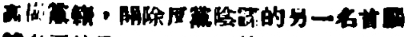高崗黨籍，開除反黨陰謀的另一名首腦
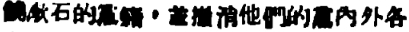饒漱石的黨籍，並撤消他們的黨內外各
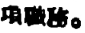項職務。
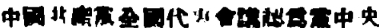中國共產黨全國代表會議認爲黨中央
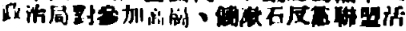政治局對參加高崗、饒漱石反黨聯盟活
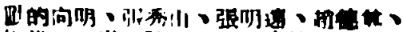動的向明、張秀山、張明遠、趙德尊、
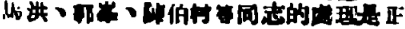馬洪、郭峯、陳伯村等同志的處理是正
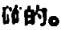確的。
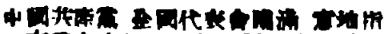中國共產黨 全國代表會議滿 意地指
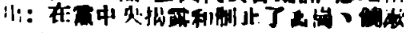出：在黨中央揭露和制止了高崗、饒漱
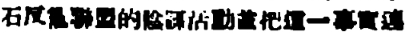石反黨聯盟的陰謀活動並把這一事實連
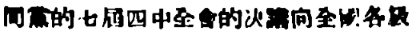同黨的七屆四中全會的決議向全國各級
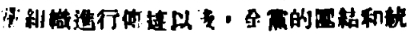黨組織進行傳達以後，全黨的團結和統
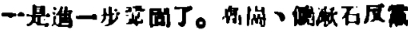一是進一步鞏固了。高崗、饒漱石反黨
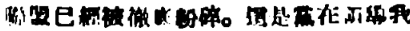聯盟已經被徹底粉碎。這是黨在領導我
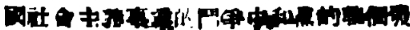國社會主義事業的鬥爭中和黨的整個發
